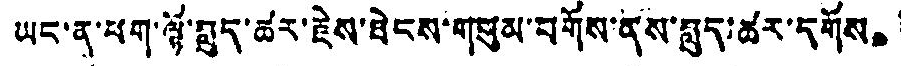ཡང་ན་ཕག་ལྟོ་བླུད་ཚར་རྗེས་ཐེངས་གསུམ་བགོས་ནས་བླུད་ཚར་དགོས。
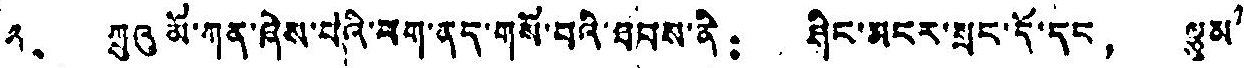༢、 ཀྲུའུ མོ་ཀན་ཞེས་པའི་ཕག་ནད་གསོ་བའི་ཐབས་ནི： ཤིང་མངར་སྲང་དོ་དང， ལྕུམ་
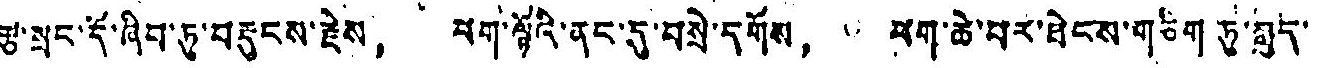རྩ་སྲང་དོ་ཞིབ་ཏུ་བརྡུངས་རྗེས， ཕག་ལྷོའི་ནང་དུ་བསྲེ་དགོས， ཕག་ཆེ་བར་ཐེངས་གཅིག ཏུ་བླུད་
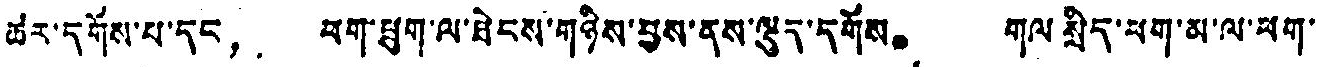ཚར་དགོས་པ་དང， ཕག་ཕྲུག་ལ་ཐེངས་གཉིས་བྱས་ནས་ལྡུད་དགོས。 གལ སྲིད་ཕག་མ་ལ་ཕག་
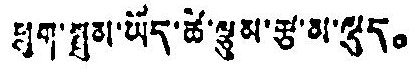ཐུག་སྤྲུམ་ཡོད་ཚེ་ལྕུམ་རྩ་མ་ལྡུད。
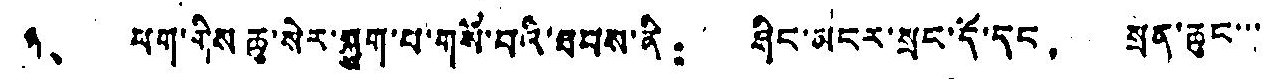༣、 ཕག་གིས ཆུ་སེར་སྐྱག་པ་གསོ་བའི་ཐབས་ནི： ཤིང་མངར་སྲང་དོ་དང， སྲན་ཆུང་་་
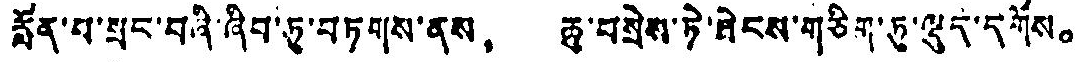རློན་པ་སྲང་བཞི་ཞིབ་ཏུ་བཏགས་ནས、 ཆུ་བསྲེས་ཏེ་ཐེངས་གཅིག་ཏུ་ལྡུད་དགོས。
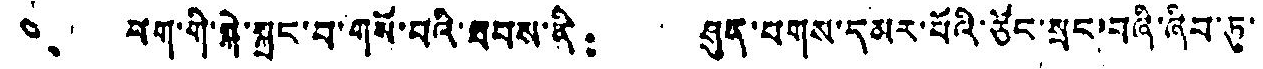༤、 ཕག་གི་སྐེ་སྐྱང་བ་གསོ་བའི་ཐབས་ནི： ཤུན་པགས་དམར་པོའི་ཙོང་སྲུང་བཞི་ཞིབ་ཏུ་
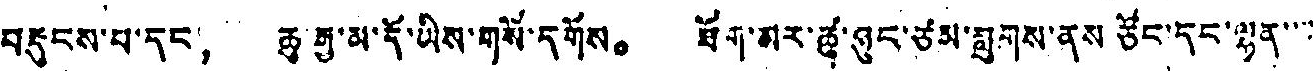བརྡུངས་པ་དང， ཆུ་རྒྱ་མ་དོ་ཡིས་གསོ་དགོས。 ཐོག་མར་ཚུ་ཉུང་ཙམ་བླུགས་ནས ཙོང་དང་ལྷན་་་་
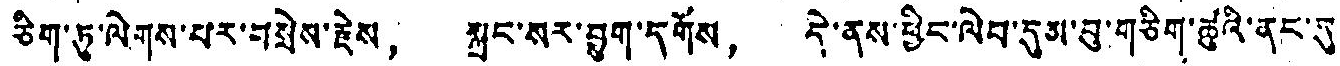ཅིག་ཏུ་ལེགས་པར་བསྲེས་རྗེས， སྐྱང་སར་བྱུག་དགོས， དེ་ནས་ཕྱིང་ལེབ་དུམ་བུ་གཅིག་ཚུའི་ནང་དུ་
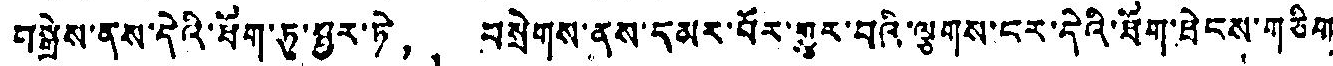བསྒྲེས་ནས་དེའི་ཐོག་ཏུ་མྱུར་ཏེ， བསྲེགས་ནས་དམར་པོར་གྱུར་བའི་ལྕགས་ངར་དེའི་ཐོག་ཐེངས་གཅིག
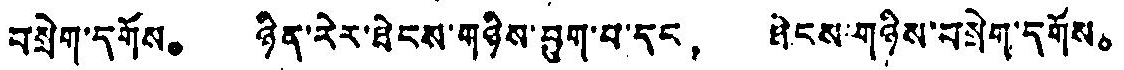བསྲེག་དགོས。 ཉིན་རེར་ཐེངས་གཉིས་བྱུག་པ་དང， ཐེངས་གཉིས་བསྲེག་དགོས。
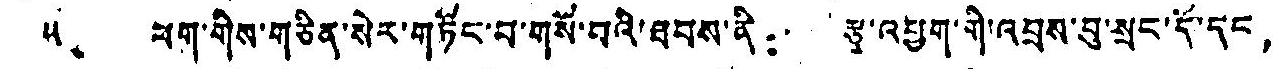༥、 ཕག་གིས་གཅིན་སེར་གཏོང་བ་གསོ་བའི་ཐབས་ནི： རྩྭ་འབྱུག་གི་འབྲས་བུ་སྲུང་དོ་དང，
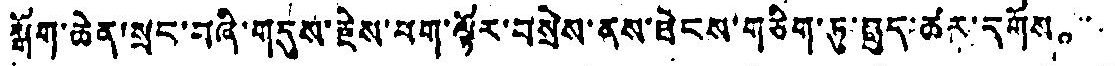སྒོག་ཆེན་སྲང་བཞི་གདུས་རྗེས་ཕག་ལྟོར་བསྲེས་ནས་ཐེངས་གཅིག་ཏུ་བླུད་ཚར་དགོས。
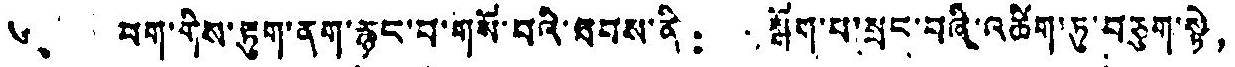༦、 པག་གིས་རུག་ནག་རྙང་བ་གསོ་བའི་ཐབས་ནི： སྒོག་པ་སྲང་བཞི་འཚིག་ཏུ་བཅུག་སྟེ，
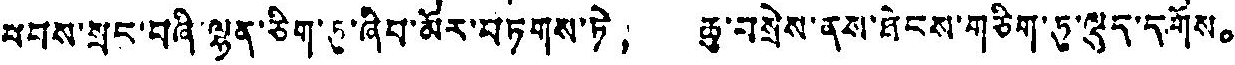ཕབས་སྲང་བཞི་ལྷན་ཅིག་ཏུ་ཞིབ་མོར་བཏགས་ཏེ， ཆུ་བསྲེས་ནས་ཐེངས་གཅིག་ཏུ་ལྡུད་དགོས。
